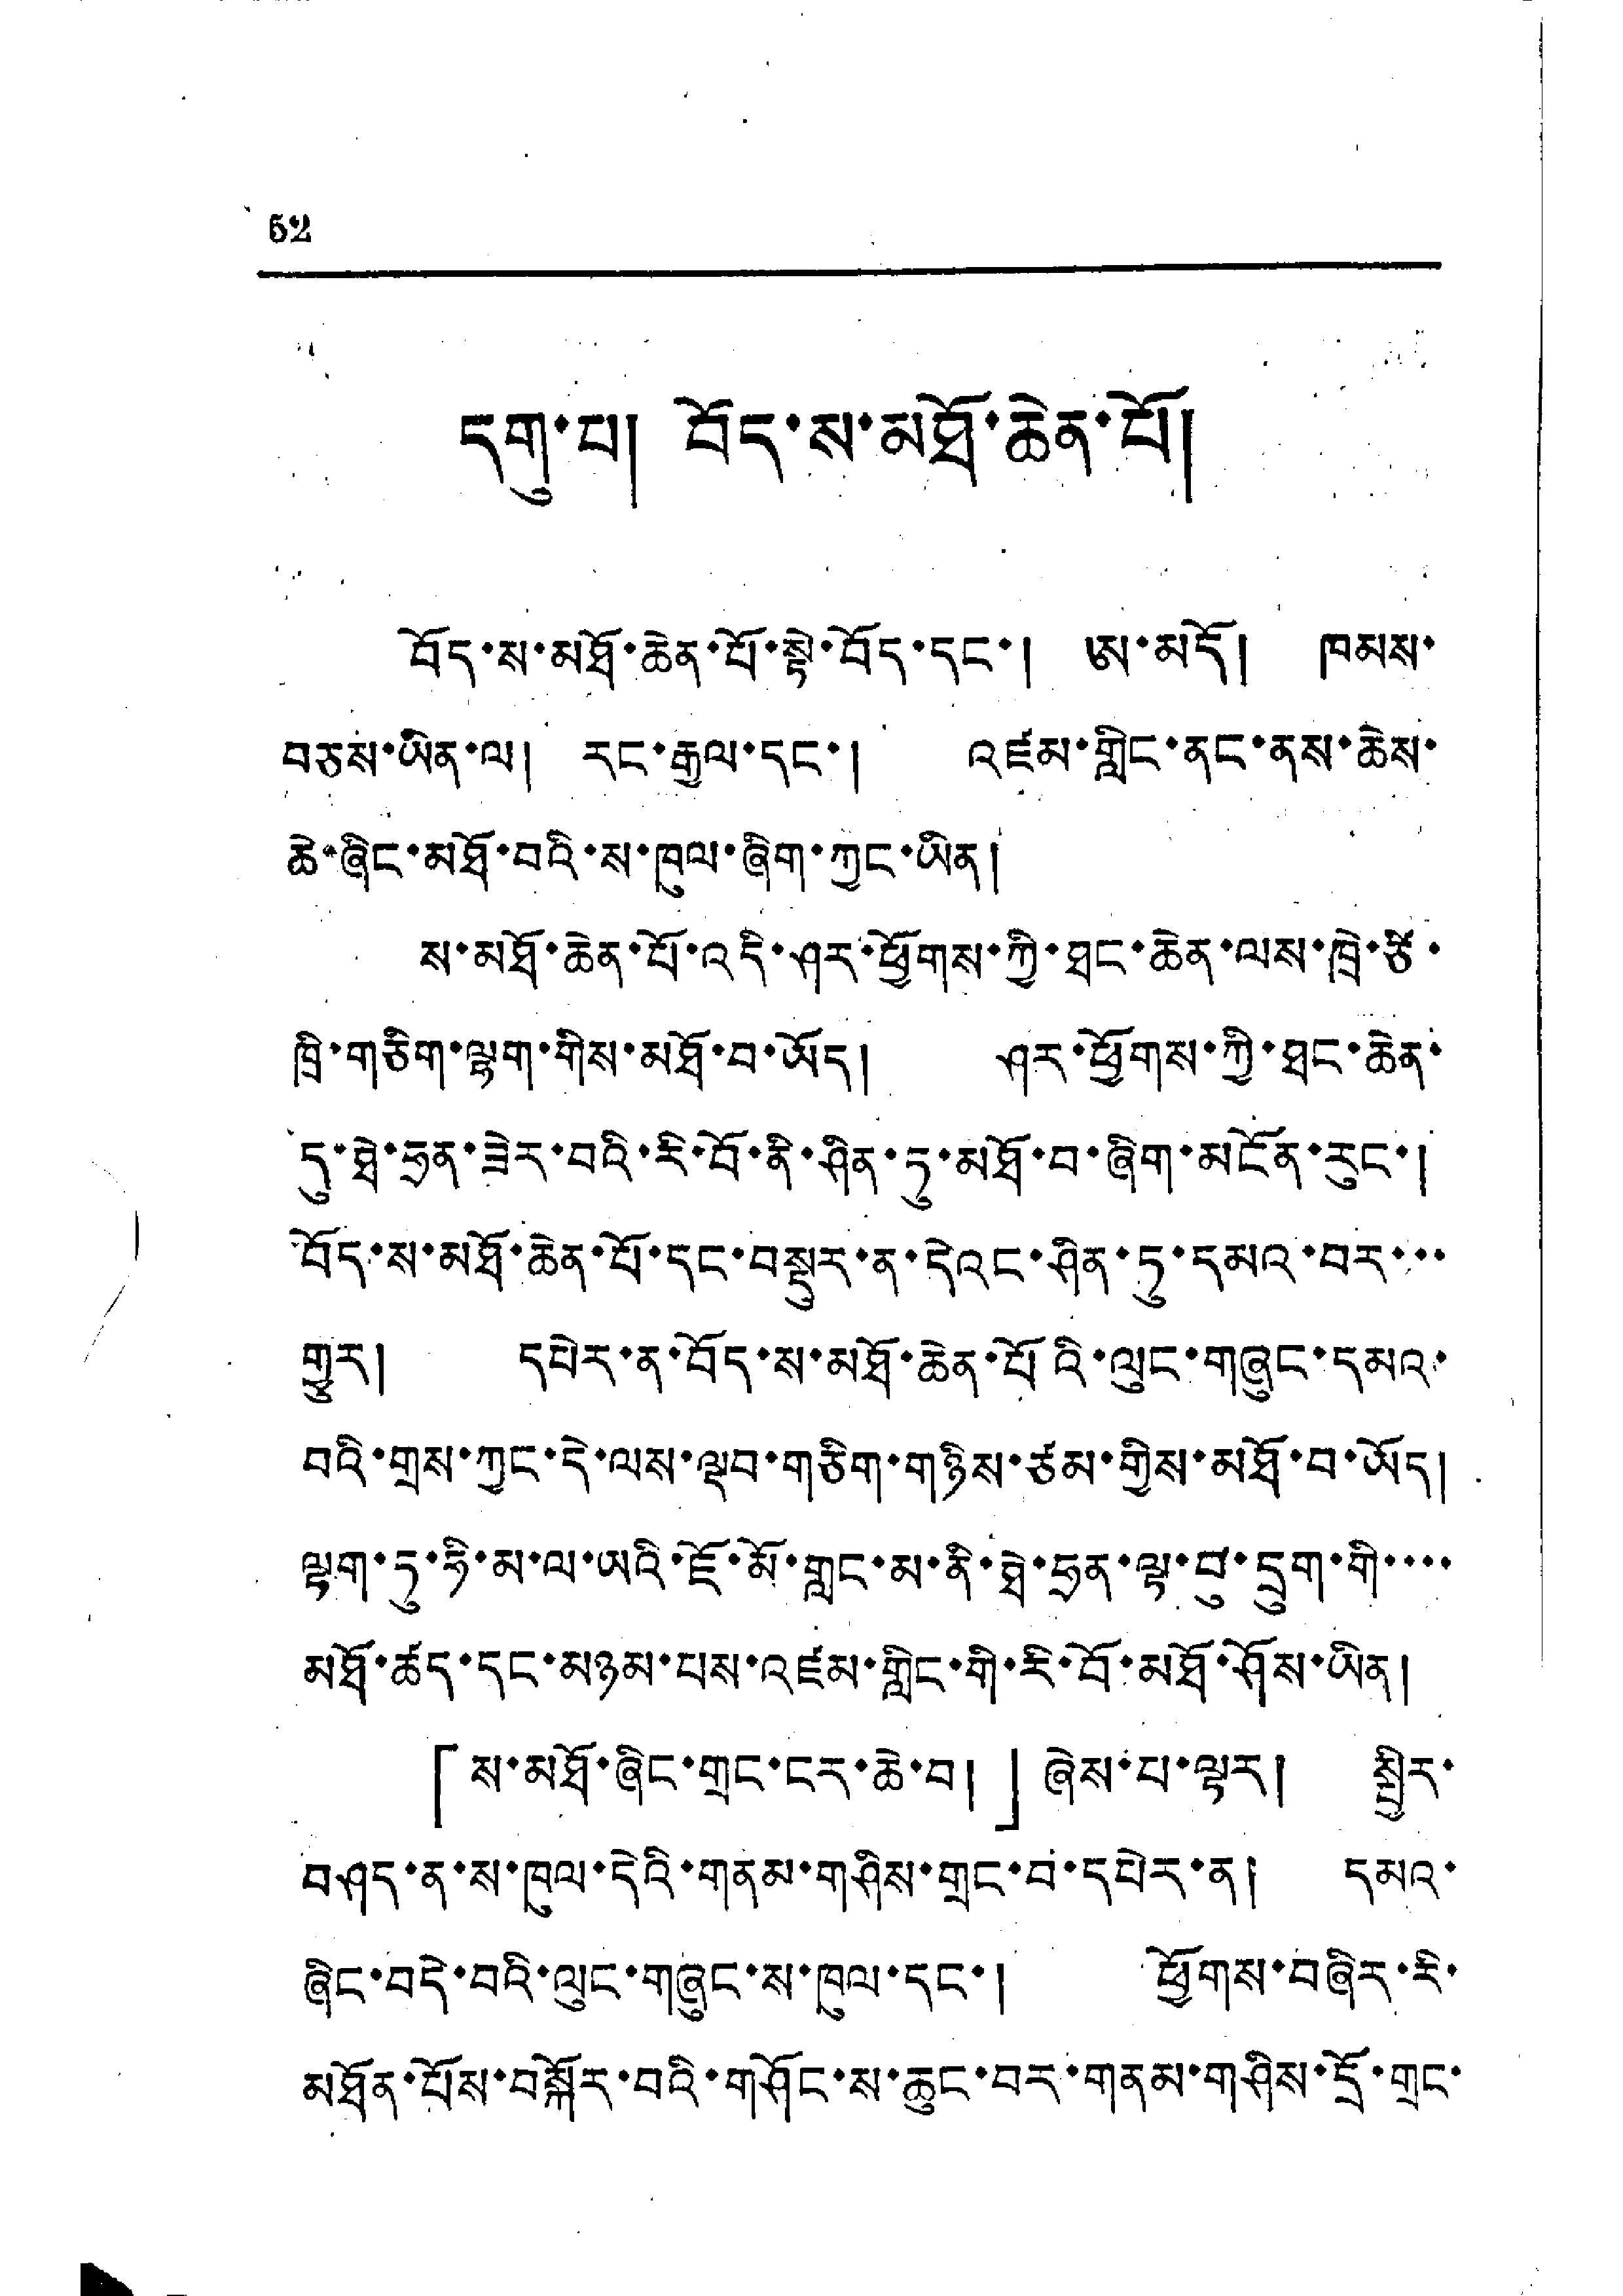52
དག་པ། བོད་ས་མཐོ་ཆེན་པོ།
བོད་ས་མཐོ་ཆེན་པོ་སྟེ་བོད་དང་། ཨ་མདོ། ཁམས་
བཅས་ཡིན་ལ། རང་རྒྱལ་དང་། འཛམ་གླིང་ནང་ནས་ཆེས་
ཆེ་ཞིང་མཐོ་བའི་ས་ཁུལ་ཞིག་ཀྱང་ཡིན།
ས་མཐོ་ཆེན་པོ་འདི་ཤར་ཕྱོགས་ཀྱི་ཐང་ཆེན་ལས་ཁྲེ་ཙི་
ཁྲི་གཅིག་ལྷག་གིས་མཐོ་བ་ཡོད། ཤར་ཕྱོགས་ཀྱི་ཐང་ཆེན་
དུ་ཐེ་ཧྲན་ཟེར་བའི་རི་བོ་ནི་ཤིན་ཏུ་མཐོ་བ་ཞིག་མངོན་རུང་།
བོད་ས་མཐོ་ཆེན་པོ་དང་བསྡུར་ན་དེའང་ཤིན་ཏུ་དམའ་བར་་་
གྱུར། དཔེར་ན་བོད་ས་མཐོ་ཆེན་པོའི་ལུང་གཞུང་དམའ་
བའི་གྲས་ཀྱང་དེ་ལས་ལྡབ་གཅིག་གཉིས་ཙམ་གྱིས་མཐོ་བ་ཡོད།
ལྟག་ཏུ་ཧི་མ་ལ་ཡའི་ཇོ་མོ་གླང་མ་ནི་ཐེ་ཧྲན་ལྟ་བུ་དྲུག་གི་་་་
མཐོ་ཚད་དང་མཉམ་པས་འཛམ་གླིང་གི་རི་བོ་མཐོ་ཤོས་ཡིན།
「ས་མཐོ་ཞིང་གྲང་ངར་ཆེ་བ།」ཞེས་པ་ལྟར། སྤྱིར་
བཤད་ན་ས་ཁུལ་དེའི་གནམ་གཤིས་གྲང་བ་དཔེར་ན། དམའ་
ཞིང་བདེ་བའི་ལུང་གཞུང་ས་ཁུལ་དང་། ཕྱོགས་བཞིར་རི་
མཐོན་པོས་བསྐོར་བའི་གཤོང་ས་ཆུང་བར་གནམ་གཤིས་དྲོ་གྲང་
